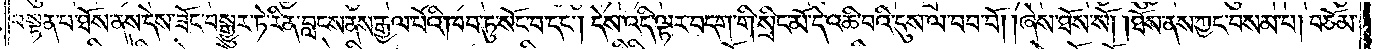བསྟན་པ་ཐོས་ནས་དེས་ཟོང་བསྒྱུར་ཏེ་རིན་བླངས་ནས་རྒྱལ་པོའི་ཁབ་ཏུ་སོང་བ་དང༌། དེས་འདི་ལྟར་བདག་གི་སྲིང་མོ་དེ་འཆི་བའི་དུས་ལ་བབ་བོ། །ཞེས་ཐོས་སོ། །ཐོས་ནས་ཀྱང་བསམ་པ། བཅོམ་
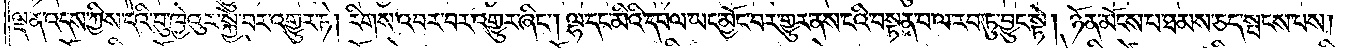ལྡན་འདས་ཀྱིས་དེའི་བུ་ཁྱེའུར་སྐྱེ་བར་འགྱུར་ཏེ། རིགས་འབར་བར་འགྱུར་ཞིང༌། ལྷ་དང་མིའི་དཔལ་ཡང་མྱོང་བར་གྱུར་ནས་ངའི་བསྟན་པ་ལ་རབ་ཏུ་བྱུང་སྟེ། ཉོན་མོངས་པ་ཐམས་ཅད་སྤངས་པས།
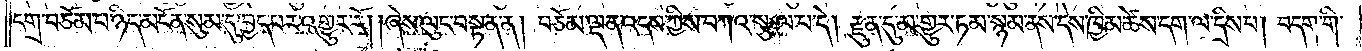དགྲ་བཅོམ་པ་ཉིད་མངོན་སུམ་དུ་བྱེད་པར་འགྱུར་རོ། །ཞེས་ལུང་བསྟན་ན། བཅོམ་ལྡན་འདས་ཀྱིས་བཀའ་སྩལ་པ་དེ། རྫུན་དུ་མ་གྱུར་ཏམ་སྙམ་ནས་དེས་ཁྱིམ་ཚེས་དག་ལ་དྲིས་པ། བདག་གི་
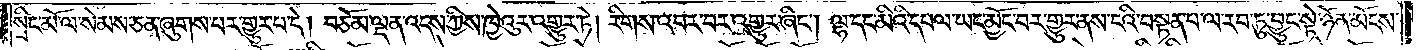སྲིང་མོ་ལ་སེམས་ཅན་ཞུགས་པར་གྱུར་པ་དེ། བཅོམ་ལྡན་འདས་ཀྱིས་ཁྱེའུར་འགྱུར་ཏེ། རིགས་འབར་བར་འགྱུར་ཞིང༌། ལྷ་དང་མིའི་དཔལ་ཡང་མྱོང་བར་གྱུར་ནས་ངའི་བསྟན་པ་ལ་རབ་ཏུ་བྱུང་སྟེ་ཉོན་མོངས་
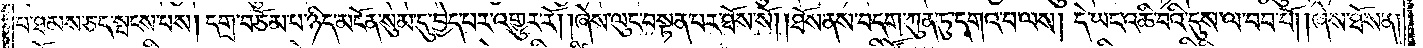པ་ཐམས་ཅད་སྤངས་པས། དགྲ་བཅོམ་པ་ཉིད་མངོན་སུམ་དུ་བྱེད་པར་འགྱུར་རོ། །ཞེས་ལུང་བསྟན་པར་ཐོས་སོ། །ཐོས་ནས་བདག་ཀུན་ཏུ་དགའ་བ་ལས། དེ་ཡང་འཆི་བའི་དུས་ལ་བབ་པོ། །ཞེས་ཐོས་ན།
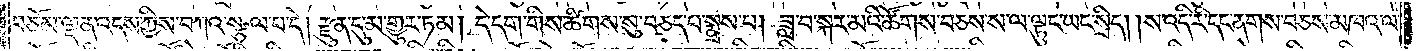བཅོམ་ལྡན་འདས་ཀྱིས་བཀའ་སྩལ་པ་དེ། རྫུན་དུ་མ་གྱུར་ཏམ། དེ་དག་གིས་ཚིགས་སུ་བཅད་པ་སྨྲས་པ། ཟླ་བ་སྐར་མའི་ཚོགས་བཅས་ས་ལ་ལྟུང་ཡང་སྲིད། །ས་འདི་རི་དང་ནགས་བཅས་མཁའ་ལ་
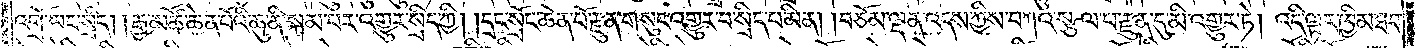འགྲོ་ཡང་སྲིད། །རྒྱ་མཚོ་ཆེན་པོའི་ཆུ་ནི་སྐམ་པར་འགྱུར་སྲིད་ཀྱི། །དྲང་སྲོང་ཆེན་པོ་རྫུན་གསུང་འགྱུར་བ་སྲིད་པ་མིན། །བཅོམ་ལྡན་འདས་ཀྱིས་བཀའ་སྩལ་པ་རྫུན་དུ་མི་འགྱུར་ཏེ། འདི་ལྟར་ཁྱིམ་ཐབ་
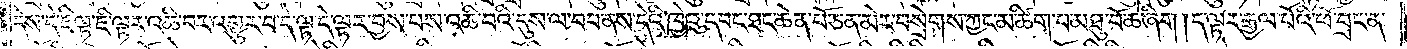དེས་དེ་ཇི་ལྟ་ཇི་ལྟར་འཆི་བར་འགྱུར་བ་དེ་ལྟ་དེ་ལྟར་བྱས་པས་འཆི་བའི་དུས་ལ་བབ་ནས་དེའི་ཁྱེའུ་དབང་ཐང་ཆེན་པོ་ཅན་མེར་བསྲེགས་ཀྱང་མ་ཚིག་པ་མཐུ་བོ་ཆེ་ཞིག །ད་ལྟར་རྒྱལ་པོའི་ཕོ་བྲང་ན་
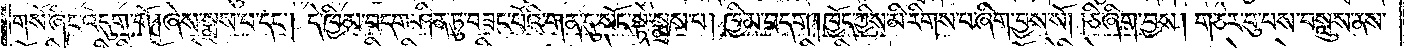གསོ་ཞིང་འདུག་གོ །ཞེས་སྨྲས་པ་དང༌། དེ་ཁྱིམ་བདག་ཤིན་ཏུ་བཟང་པོའི་གན་དུ་སོང་སྟེ་སྨྲས་པ། ཁྱིམ་བདག །ཁྱོད་ཀྱིས་མི་རིགས་པ་ཞིག་བྱས་སོ། །ཅི་ཞིག་བྱས། གཅེར་བུ་པས་བསླུས་ནས་
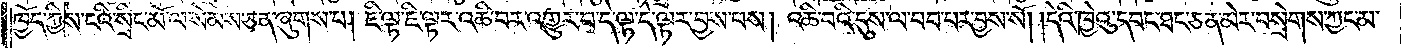ཁྱོད་ཀྱིས་ངའི་སྲིང་མོ་ལ་སེམས་ཅན་ཞུགས་པ། ཇི་ལྟ་ཇི་ལྟར་འཆི་བར་འགྱུར་བ་དེ་ལྟ་དེ་ལྟར་བྱས་པས། འཆི་བའི་དུས་ལ་བབ་པར་བྱས་སོ། །དེའི་ཁྱེའུ་དབང་ཐང་ཅན་མེར་བསྲེགས་ཀྱང་མ་
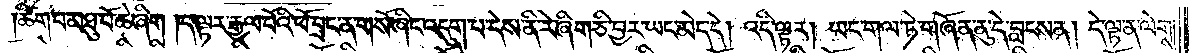ཚིག་པ་མཐུ་བོ་ཆེ་ཞིག །ད་ལྟར་རྒྱལ་པོའི་ཕོ་བྲང་ན་གསོ་ཞིང་འདུག་པ་དེས་ནི་རེ་ཞིག་ཅི་བྱར་ཡང་མེད་དེ། འདི་ལྟར། ཡང་གལ་ཏེ་གཞོན་ནུ་དེ་བླངས་ན། དེ་ལྟ་ན་ལེགས་
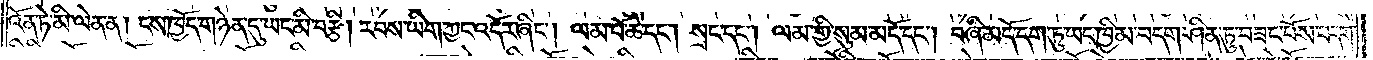འོན་ཏེ་མི་ལེན་ན། ངས་ཁྱོད་གཉེན་དུ་ཡང་མི་བརྩི། རབས་ཡིག་ཀྱང་འདོར་ཞིང༌། ལམ་པོ་ཆེ་དང༌། སྲང་དང༌། ལམ་གྱི་སུམ་མདོ་དང༌། བཞི་མདོ་དག་ཏུ་ཡང་ཁྱིམ་བདག་ཤིན་ཏུ་བཟང་པོས་བདག་
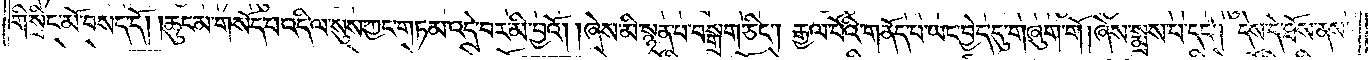གི་སྲིང་མོ་བསད་དོ། །ཆུང་མ་གསོད་པ་འདི་ལ་སུས་ཀྱང་གཏམ་འདྲེ་བར་མི་བྱའོ། །ཞེས་མི་སྙན་པ་བསྒྲག་ཅིང༌། རྒྱལ་པོའི་གནོད་པ་ཡང་བྱེད་དུ་གཞུག་གོ། ཞེས་སྨྲས་པ་དང༌། དེས་དེ་ཐོས་ནས་
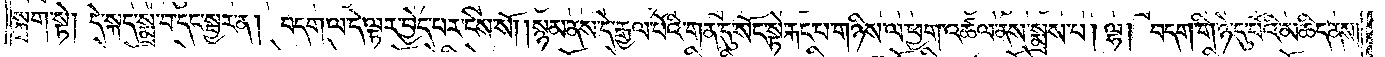སྐྲག་སྟེ། དེ་སྐད་སྨྲ་བ་དང་སྦྱར་ན། བདག་ལ་དེ་ལྟར་བྱེད་པར་ངེས་སོ། །སྙམ་ནས་དེ་རྒྱལ་པོའི་གན་དུ་སོང་སྟེ་རྐང་པ་གཉིས་ལ་ཕྱག་འཚལ་ནས་སྨྲས་པ། ལྷ། བདག་གི་ཉེ་དུ་པོའི་མཆིད་ནས།
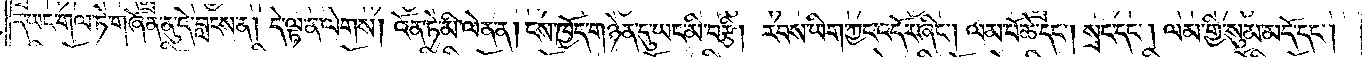ད་ཡང་གལ་ཏེ་གཞོན་ནུ་དེ་བླངས་ན། དེ་ལྟ་ན་ལེགས། འོན་ཏེ་མི་ལེན་ན། ངས་ཁྱོད་གཉེན་དུ་ཡང་མི་བརྩི། རབས་ཡིག་ཀྱང་འདོར་ཞིང༌། ལམ་པོ་ཆེ་དང༌། སྲང་དང༌། ལམ་གྱི་སུམ་མདོ་དང༌།
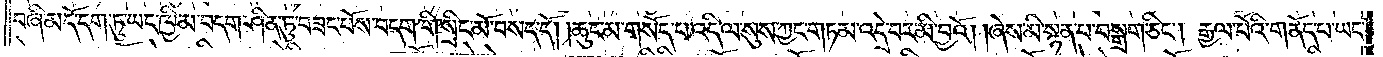བཞི་མདོ་དག་ཏུ་ཡང་ཁྱིམ་བདག་ཤིན་ཏུ་བཟང་པོས་བདག་གི་སྲིང་མོ་བསད་དོ། །ཆུང་མ་གསོད་པ་འདི་ལ་སུས་ཀྱང་གཏམ་འདྲེ་བར་མི་བྱའོ། །ཞེས་མི་སྙན་པ་བསྒྲག་ཅིང༌། རྒྱལ་པོའི་གནོད་པ་ཡང་
